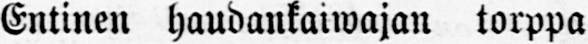Entinen haudankaiwajan torppa
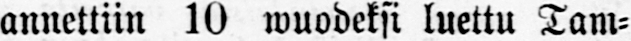annettiin 10 wuodeksi luettu Tam-
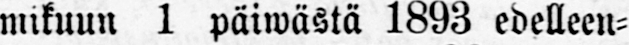mikuun 1 päiwästä 1893 edelleen-
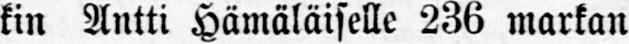kin Antti Hämäläiselle 236 markan
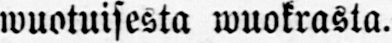wuotuisesta wuokrasta.
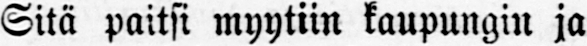Sitä paitsi myytiin kaupungin ja
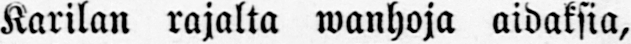Karilan rajalta wanhoja aidaksia,
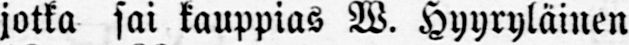jotka sai kauppias W. Hyyryläinen
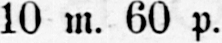10 m. 60 p.
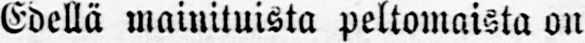Edellä mainituista peltomaista on
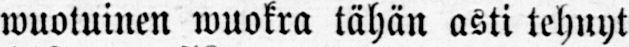wuotuinen wuokra tähän asti tehnyt
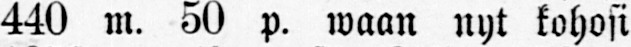440 m. 50 p. waan nyt kohosi
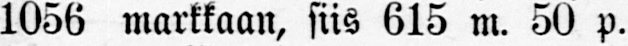1056 markkaan, siis 615 m. 50 p.
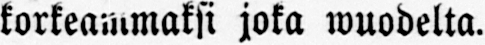korkeammaksi joka wuodelta.
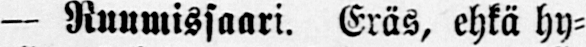— Ruumissaari. Eräs, ehkä hy-
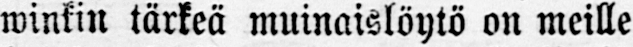winkin tärkeä muinaislöytö on meille
